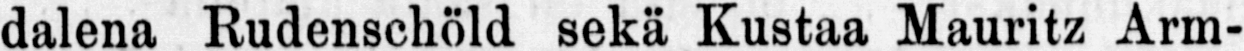dalena Rudenschöld sekä Kustaa Mauritz Arm-
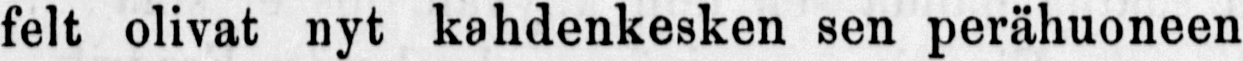felt olivat nyt kahdenkesken sen perähuoneen
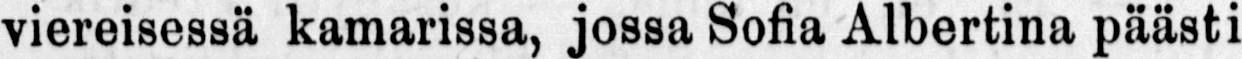viereisessä Kamarissa, jossa Sofia päästi
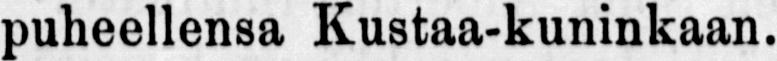puheellensa Kustaa-kuninkaan.
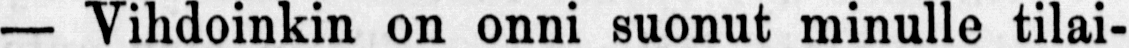— Vihdoinkin on onni suonut minulle tilai-
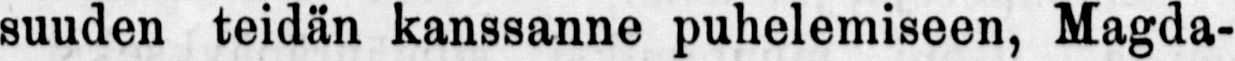suuden teidän kanssanne puhelemiseen, Magda-
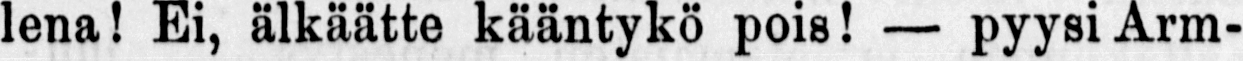lena! Ei, älkäätte kääntykö pois! — pyysi Arm-
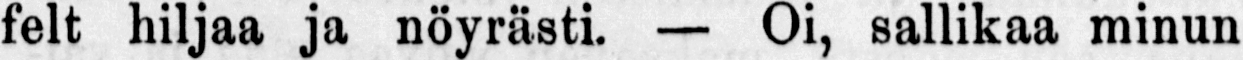felt hiljaa ja nöyr ästi. — Oi, sallikaa minun
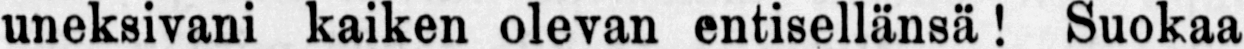uneksivani kaiken olevan entisellänsä! Suokaa
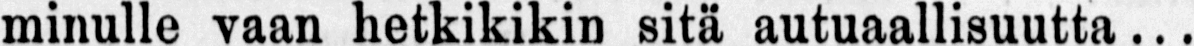minulle vaan hetkikikin sitä autuaallisuutta...
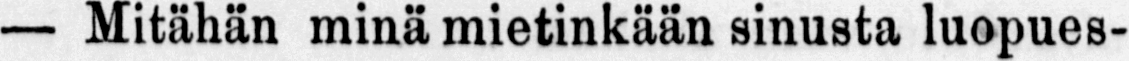— Mitähän minä mietinkään sinusta luopues-
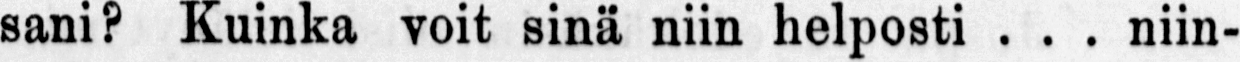sani? Kuinka voit sinä niin helposti . . . niin-
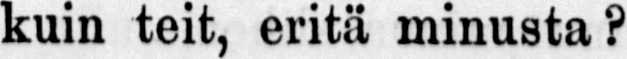kuin teit, eritä minusta?
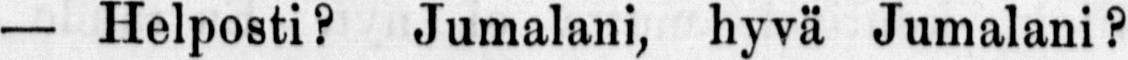— Helposti? Jumalani, hyv ä Jumalani?
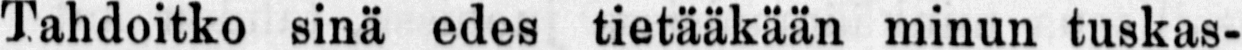Tahdoitko sinä edes tietääkään minun tuskas-
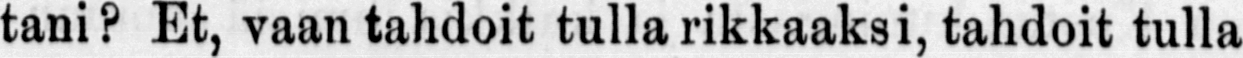tani? Et, vaan tahdoit tulla rikkaaksi, tahdoit tulla
